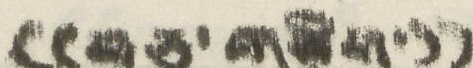(( བཅུ་གཅིག་ ))
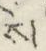ས
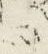ས
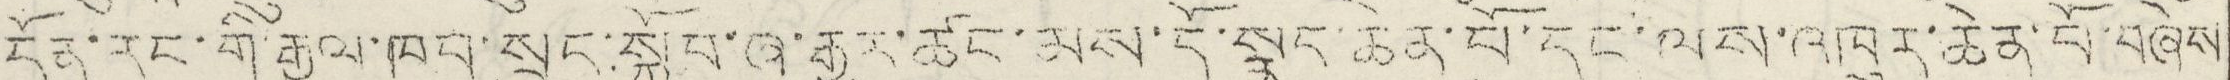དོན་རང་གི་རྒྱལ་ཁབ་སྲུང་སྐྱོབ་ཞུ་རྒྱར་ཚང་མས་དོ་སྣང་ཆེན་པོ་དང་ལས་འཁུར་ཆེན་པོ་བཞེས
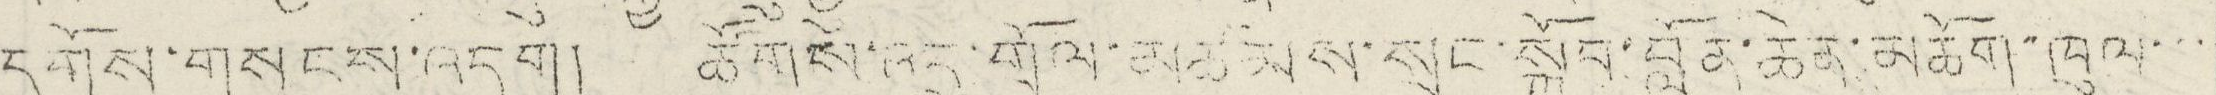དགོས་གསུངས་འདུག། ཚོགས་འདུ་གྲོལ་མཚམས་སྲུང་སྐྱོབ་བློན་ཆེན་མཆོག་ཁུལ་་་
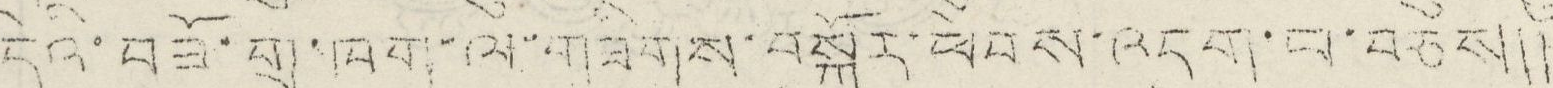དེའི་བཟོ་གྲ་ཁག་ལ་གཟིགས་བསྐོར་ཕེབས་འདུག་པ་བཅས།།
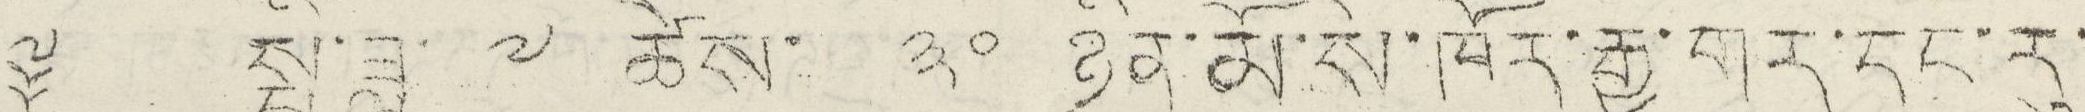༈ སྤྱི་ཟླ་ ༧ ཚེས་ ༣༠ ཉིན་མོ་སེ་ཁོར་རྒྱ་གར་དང་རུ་
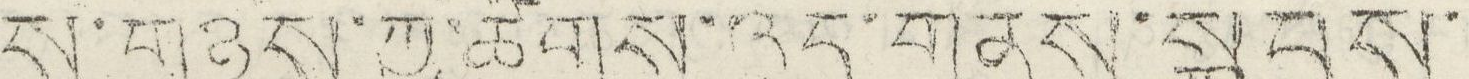སུ་གཉིས་ཀྱི་ཚོགས་འདུ་གནས་སྐབས་
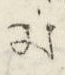མ
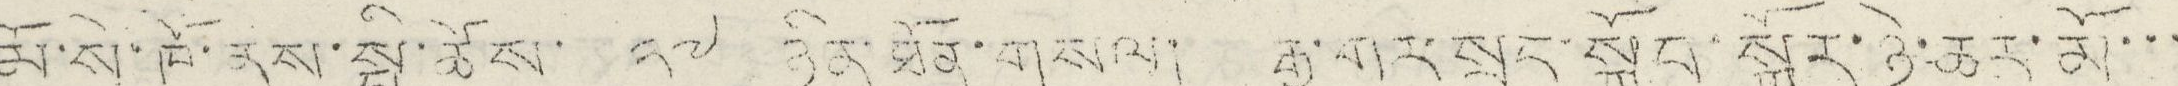མོ་སེ་ཁོ་ནས་སྤྱི་ཚེས་ ༢༧ ཉིན་ཐོན་གསལ། རྒྱ་གར་སྲུང་སྐྱོབ་སྐོར་ཉེ་ཆར་མོ་་་
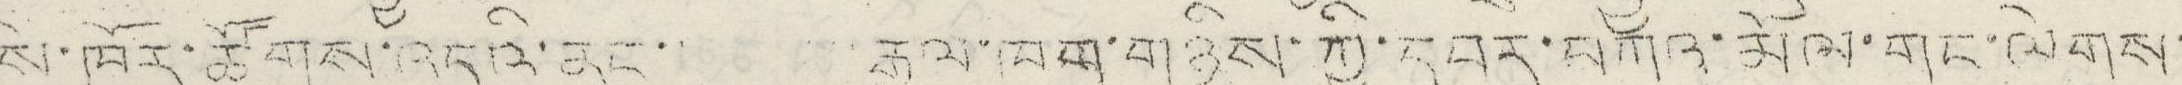སེ་ཁོར་ཚོགས་འདུའི་ནང་་ རྒྱལ་ཁག་གཉིས་ཀྱི་དབར་བཀའ་མོལ་གང་ལེགས་
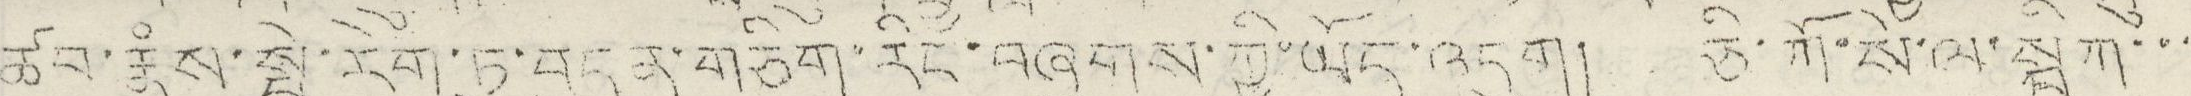ཚབ་རྣཾས་སྤེ་རེག་ཏུ་བདུན་གཅིག་རིང་བཞུགས་ཀྱི་ཡོད་འདུག། ཅི་ཀོ་སེ་ལ་སྦིཀ་་་
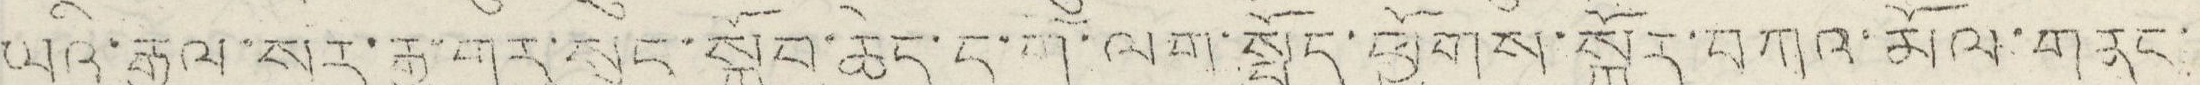ཡའི་རྒྱལ་སར་རྒྱ་གར་སྲུང་སྐྱོབ་ཆེད་དུ་གོ་ལག་སྤྲོད་ཕྱོགས་སྐོར་བཀའ་མོལ་གནང་
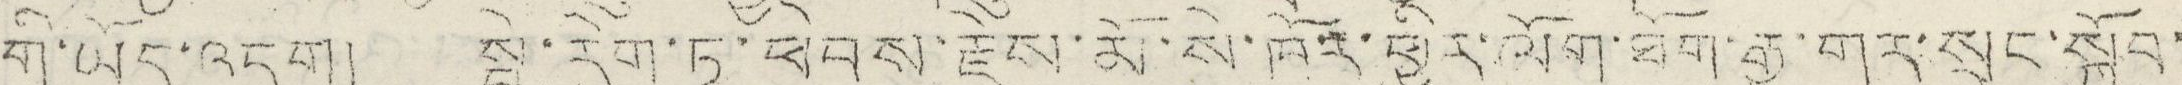གི་ཡོད་འདུག། སྤེ་རེག་ཏུ་ཕེབས་རྗེས་མོ་སེ་ཁོར་ཕྱིར་ལོག་ཐོག་རྒྱ་གར་སྲུང་སྐྱོབ་
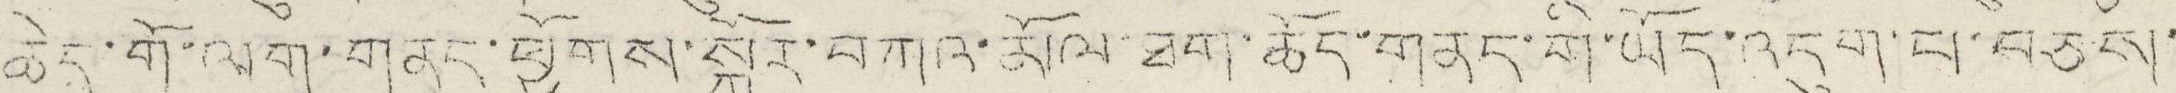ཆེད་གོ་ལག་གནང་ཕྱོགས་སྐོར་བཀའ་མོལ་ཐག་ཆོད་གནད་གི་ཡོད་འདུག་པ་བཅས་
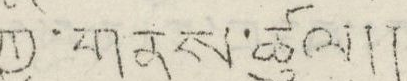གྱི་གནས་ཚུལ།།
